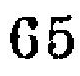65
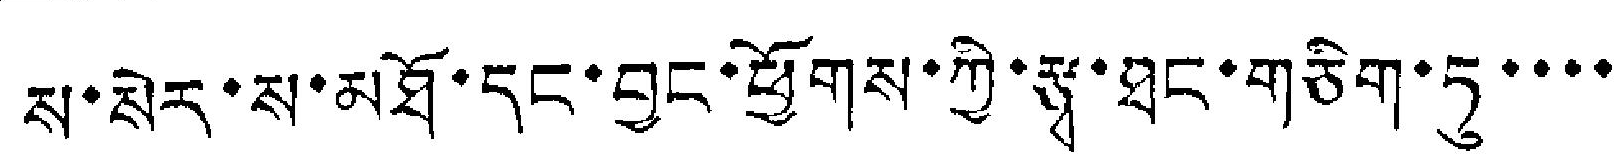ས་སེར་ས་མཐོ་དང་བྱང་ཕྱོགས་ཀྱི་རྩྭ་ཐང་གཅིག་ཏུ་་་་
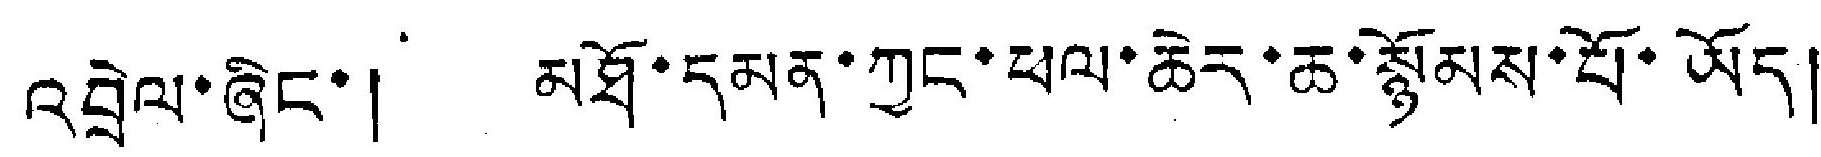འབྲེལ་ཞིང་། མཐོ་དམན་ཀྱང་ཕལ་ཆེར་ཆ་སྙོམས་པོ་ཡོད།
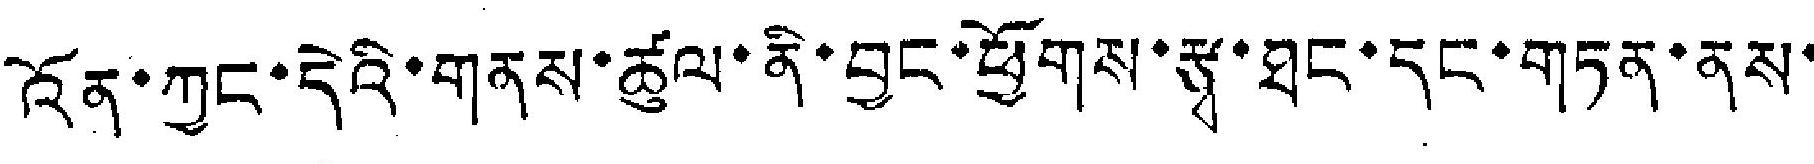འོན་ཀྱང་དེའི་གནས་ཚུལ་ནི་བྱང་ཕྱོགས་རྩྭ་ཐང་དང་གཏན་ནས་
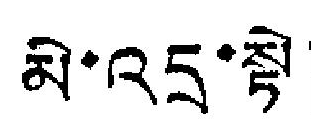མི་འདྲ་སྟེ།
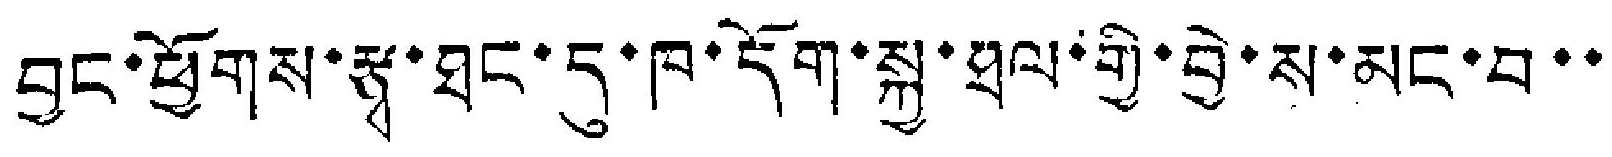བྱང་ཕྱོགས་རྩྭ་ཐང་དུ་ཁ་དོག་སྐྱ་ཐལ་གྱི་བྱེ་ས་མང་བ་་
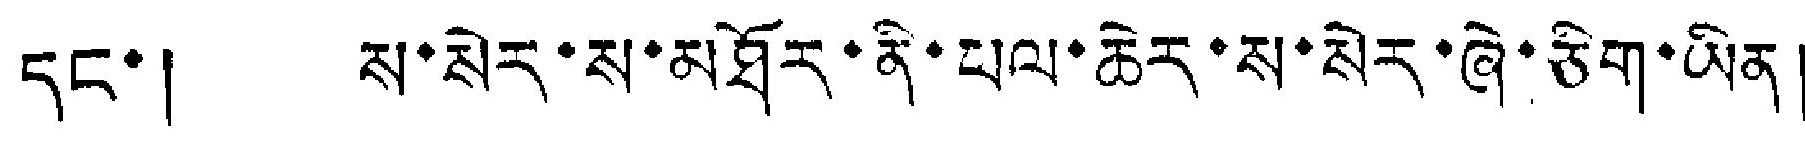དང་། ས་སེར་ས་མཐོར་ནི་ཕལ་ཆེར་ས་སེར་ཞེ་ཅིག་ཡིན།
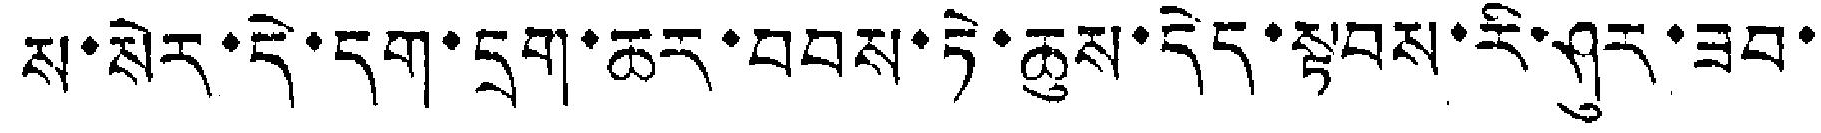ས་སེར་དེ་དག་དྲག་ཆར་བབས་ཏེ་ཆུས་དེད་སྟབས་རི་ཤུར་ཟབ་
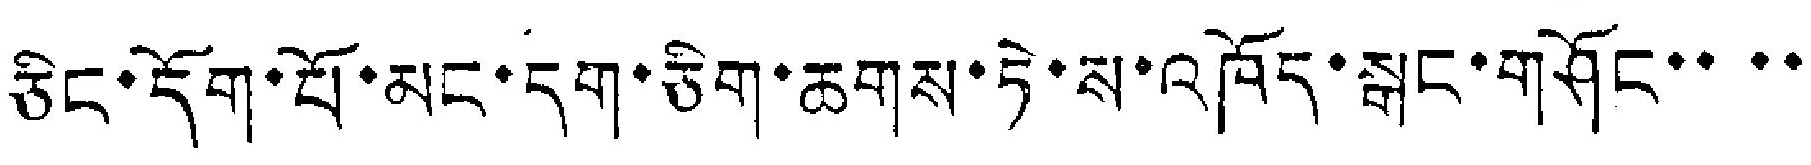ཅིང་དོག་པོ་མང་དག་ཅིག་ཆགས་ཏེ་ས་འཁོད་སྒང་གཤོང་་་་
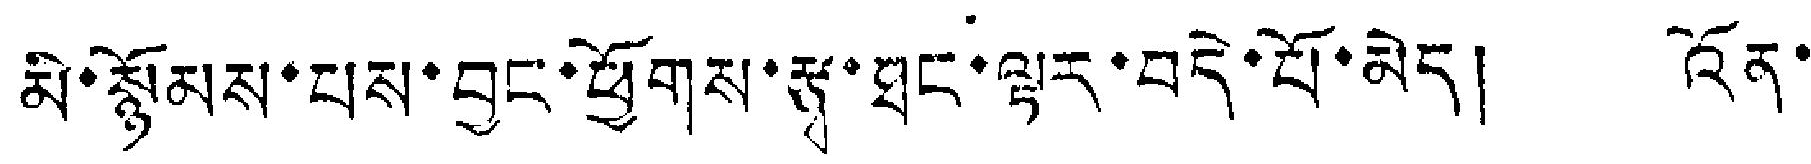མི་སྙོམས་པས་བྱང་ཕྱོགས་རྩྭ་ཐང་ལྟར་བདེ་པོ་མེད། འོན་
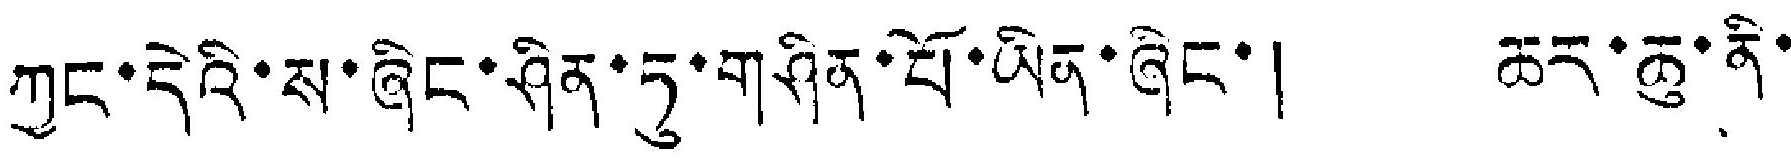ཀྱང་དེའི་ས་ཞིང་ཤིན་ཏུ་གཤིན་པོ་ཡིན་ཞིང་། ཆར་ཆུ་ནི་
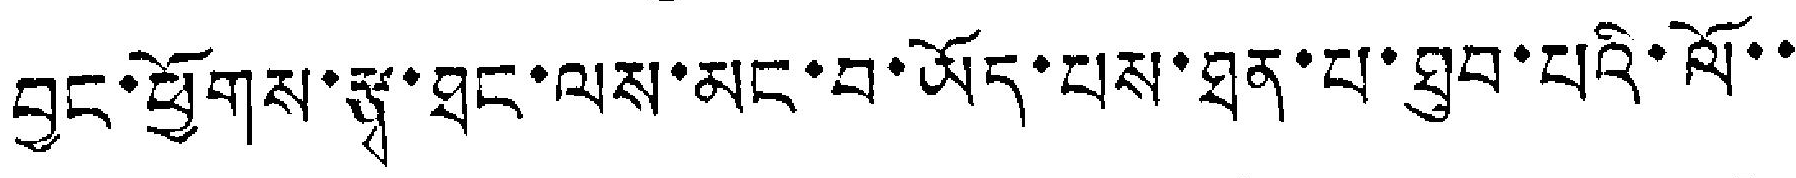བྱང་ཕྱོགས་རྩྭ་ཐང་ལས་མང་བ་ཡོད་པས་ཐན་པ་ཐུབ་པའི་ལོ་་
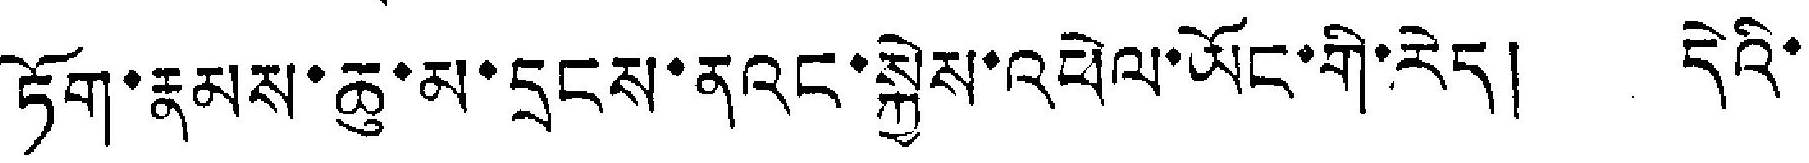ཏོག་རྣམས་ཆུ་མ་དྲངས་ནའང་སྐྱེས་འཕེལ་ཡོང་གི་རེད། དེའི་
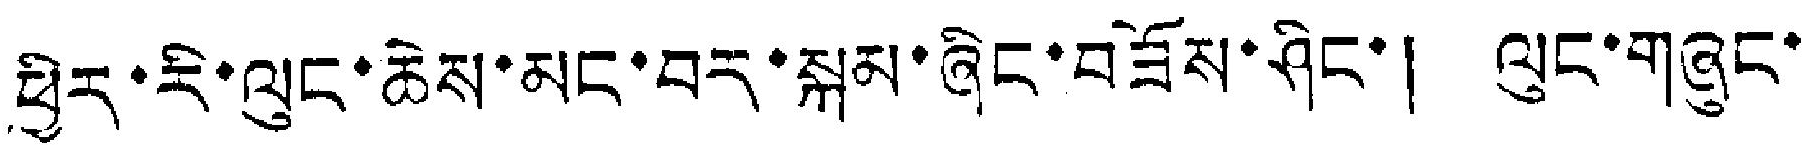ཕྱིར་རི་ལུང་ཆེས་མང་བར་སྐམ་ཞིང་བཟོས་ཤིང་། ལུང་གཞུང་
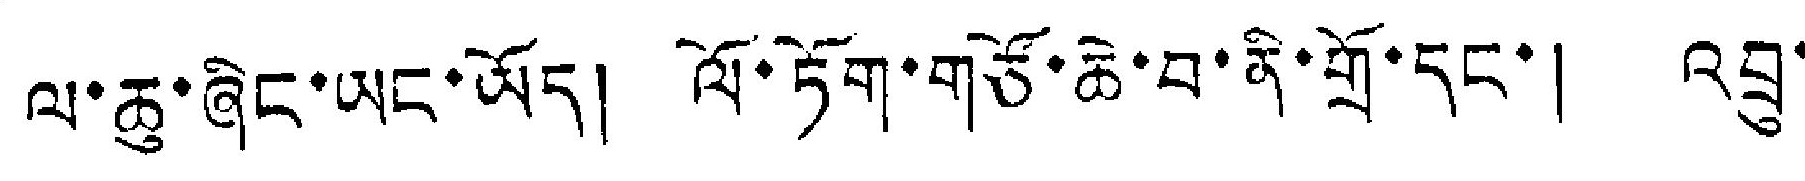ལ་ཆུ་ཞིང་ཡང་ཡོད། ལོ་ཏོག་གཙོ་ཆེ་བ་ནི་གྲོ་དང་། འབྲུ་
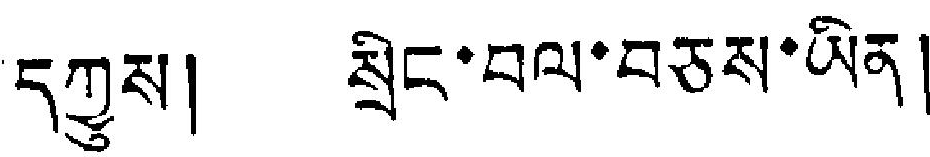དཀྱུས། སྲིང་བལ་བཅས་ཡིན།
